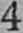4
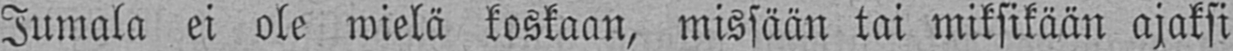Jumala ei ole wielä koskaan, missään tai miksikään ajaksi
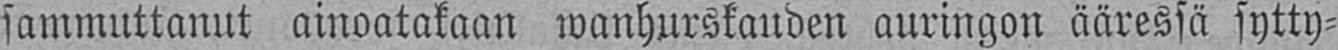sammuttanut ainoatakaan wanhurskauden auringon ääressä sytty-
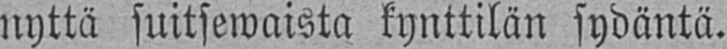nyttä suitsewaista kynttilän sydäntä.
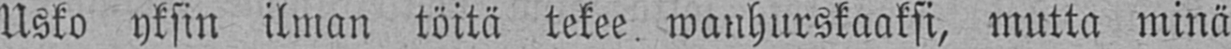Usko yksin ilman töitä tekee, wanhurskaaksi, mutta minä
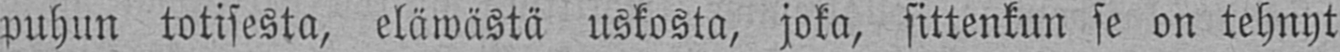puhun totisesta, eläwästä uskosta, joka, sittenkun se on tehnyt
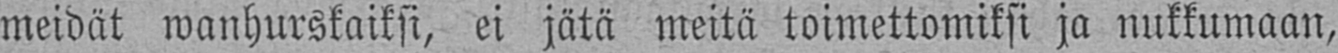meidät wanhurskaiksi, ei jätä meitä toimettomiksi ja nukkumaan,
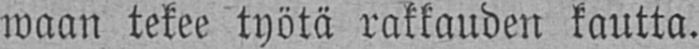waan tekee työtä rakkauden kautta.
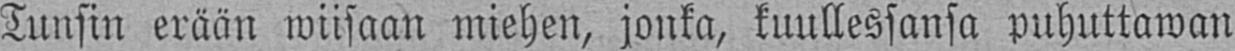Tunsin erään wiisaan miehen, jonka, kuullessansa puhuttawan
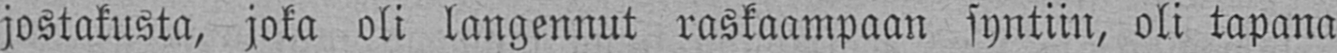jostakusta, joka oli langennut raskaampaan syntiin, oli tapana
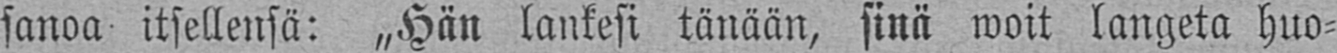sanoa itsellensä: „Hän lankesi tänään, sinä woit langeta huo-
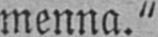menna."
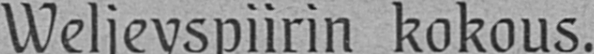Weljeyspiirin kokous.
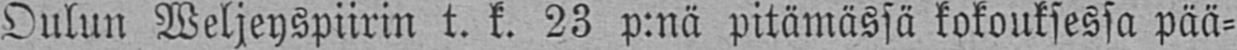Oulun Weljeyspiirin t. k. 23 p:nä pitämässä kokouksessa pää-
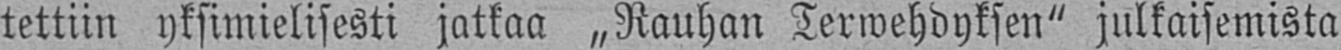tettiin yksimielisesti jatkaa „Rauhan Terwehdyksen" julkaisemista
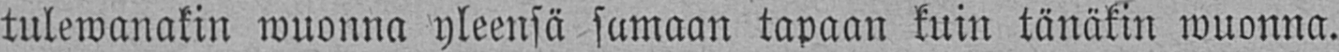tulewanakin wuonna yleensä samaan tapaan kuin tänäkin wuonna.
